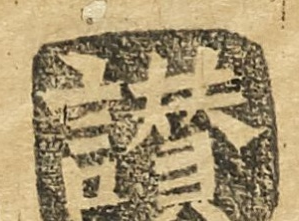讚
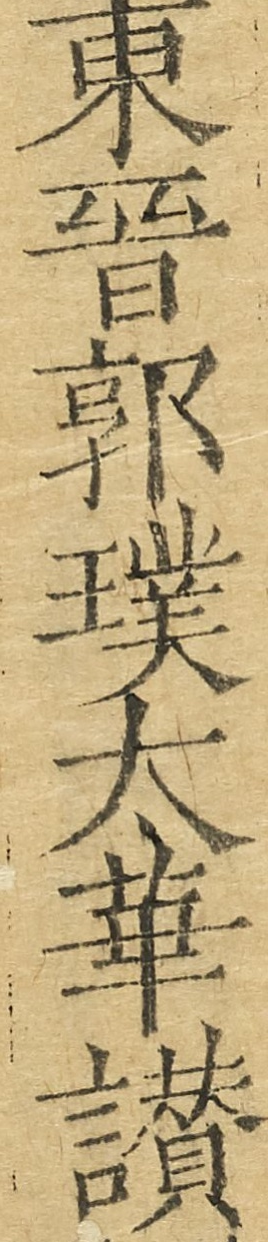東晉郭璞太華讚
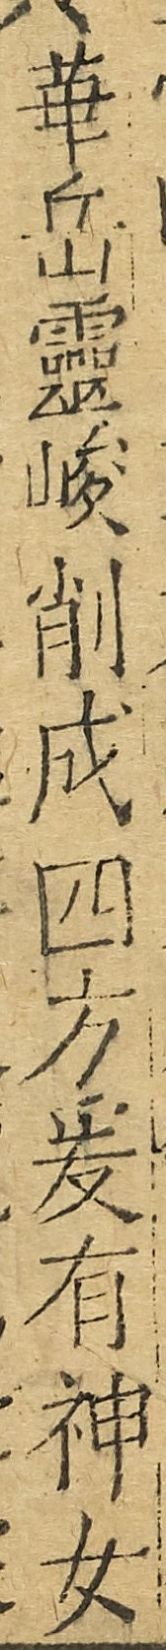華岳靈峻削成四方爰有神女
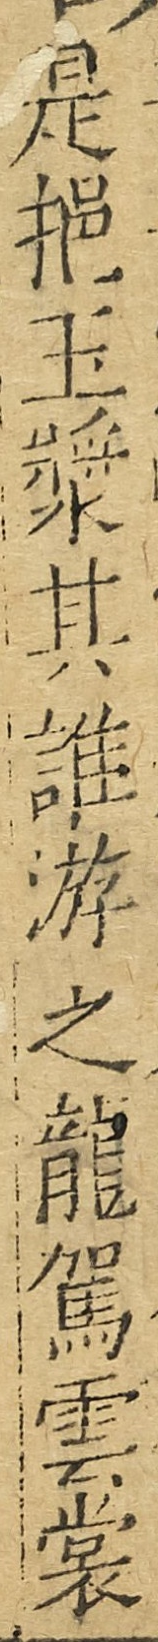是挹玉漿其誰游之龍駕雲裳
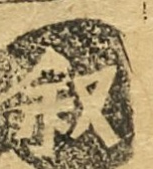敘
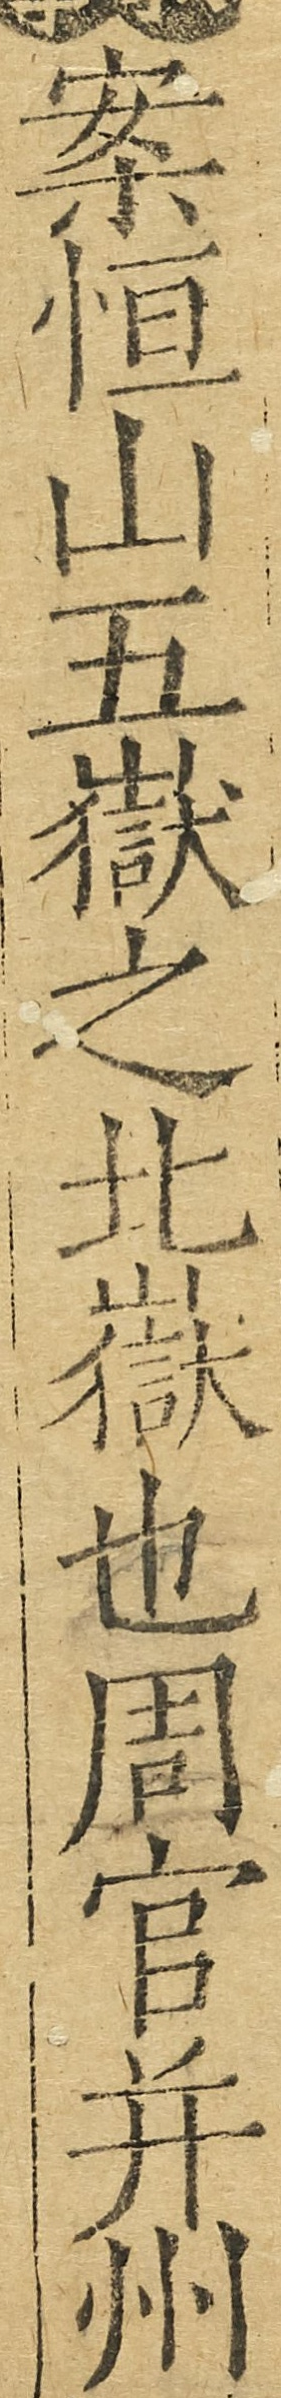案恒山五嶽之北嶽也周官并州
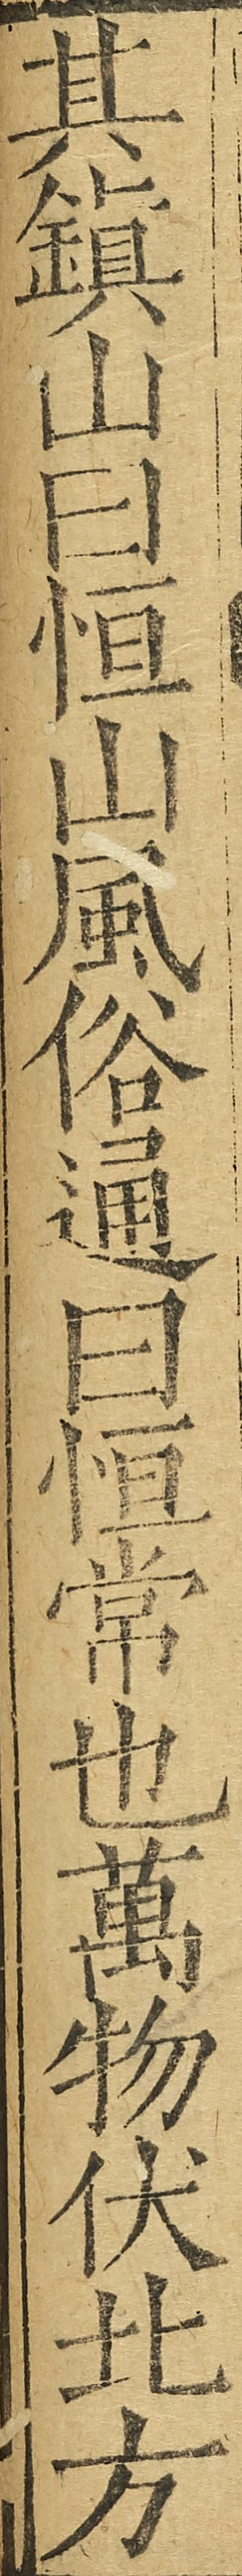其鎮山曰恒山風俗通曰恒常也萬物伏北方
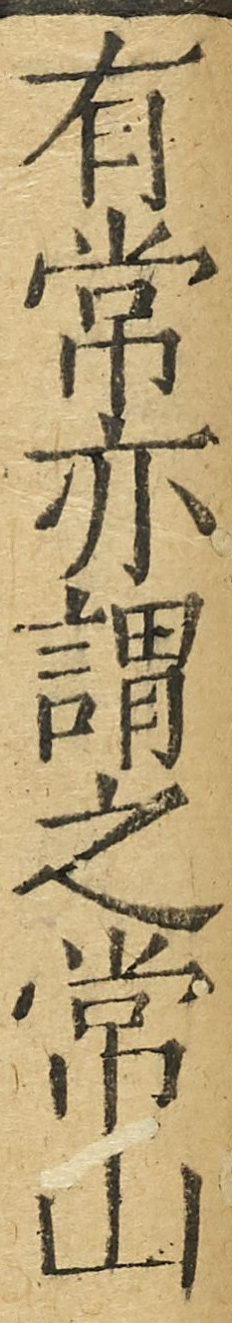有常亦謂之常山
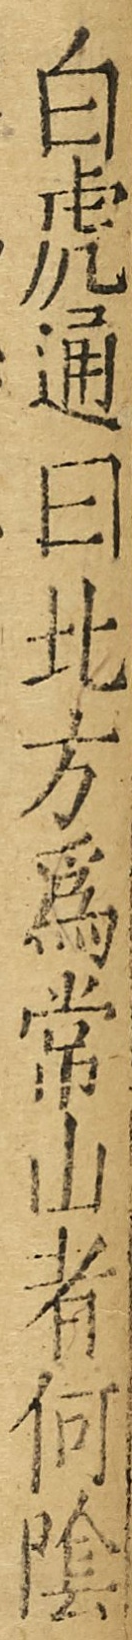白虎通曰北方為常山者何陰
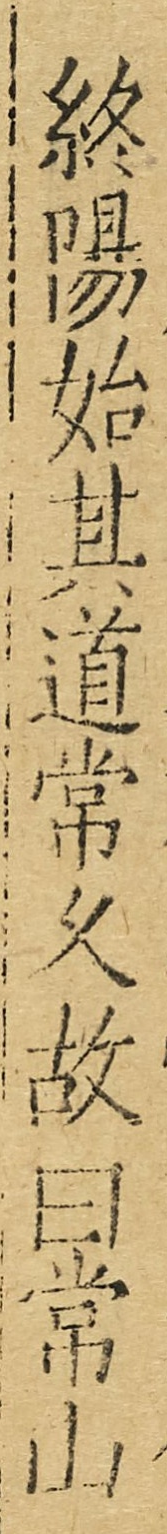終陽始其道常久故曰常山
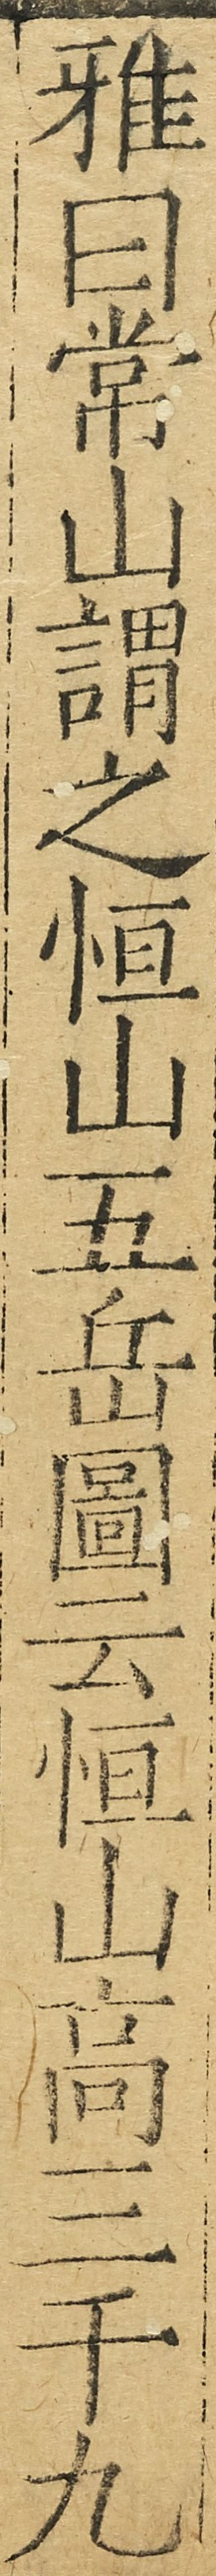雅曰常山謂之恒山五岳圖云恒山高三千九
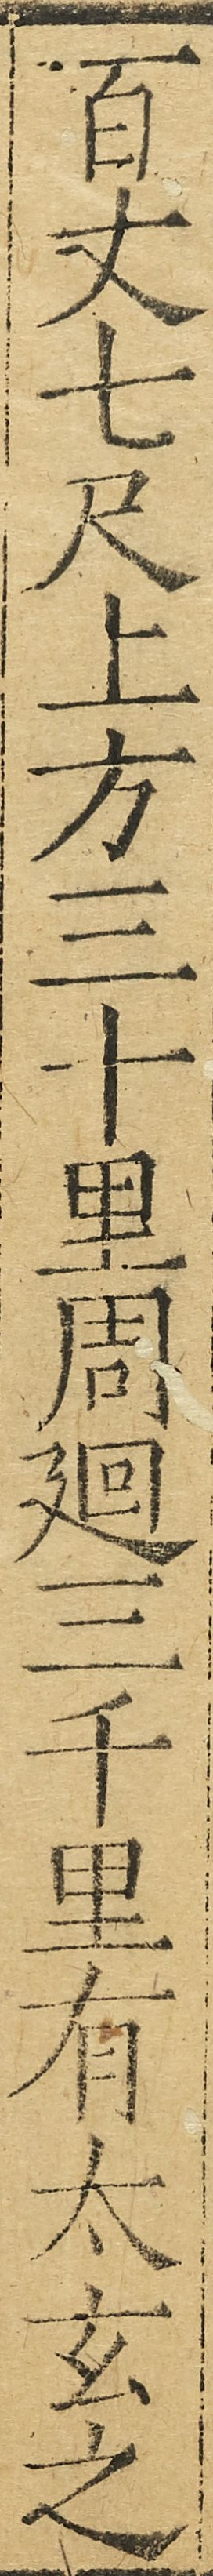百丈七尺上方三十里周廻三千里有太玄之
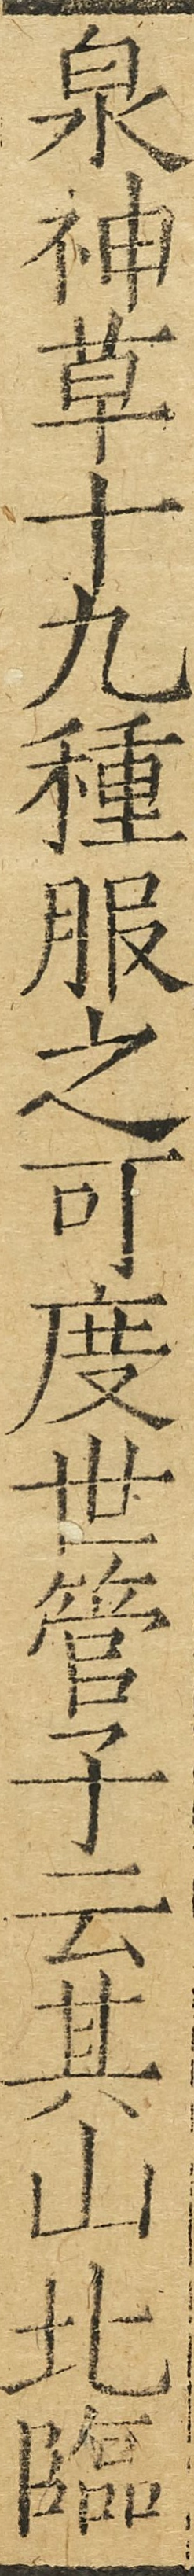泉神草十九種服之可度世管子云其山北臨
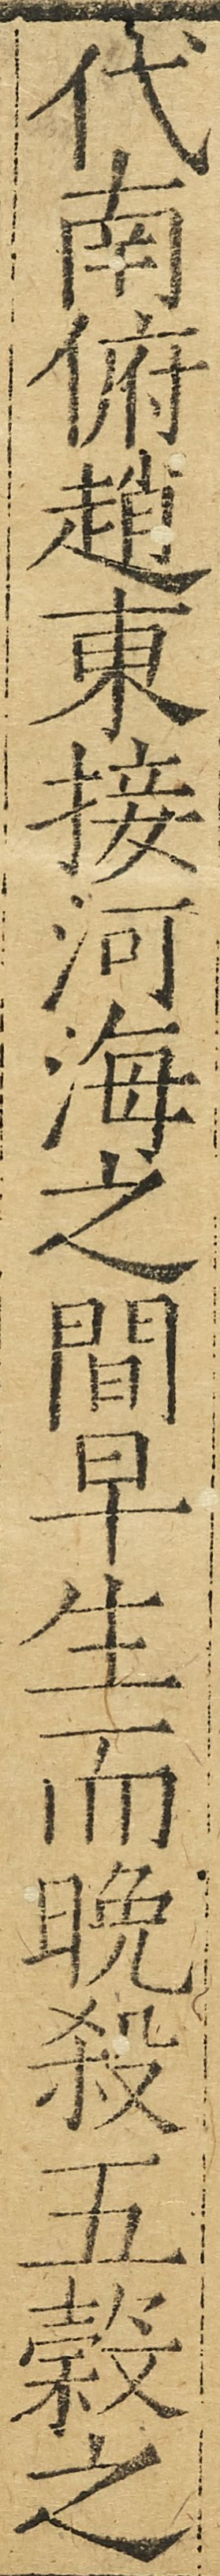代南俯趙東接河海之間早生而晚殺五穀之
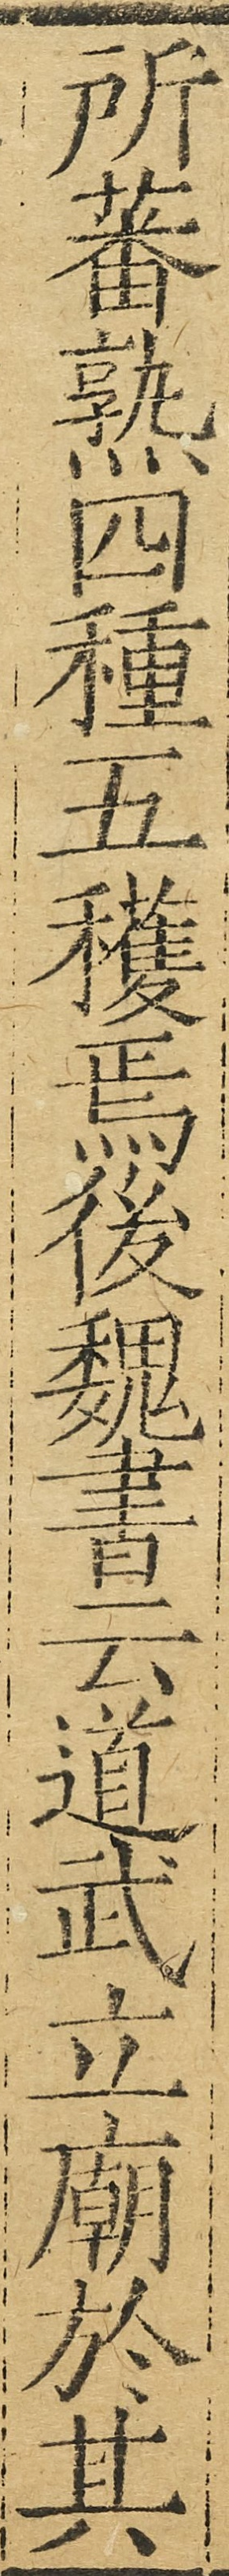所蕃熟四種五穫焉後魏書云道武立廟於其
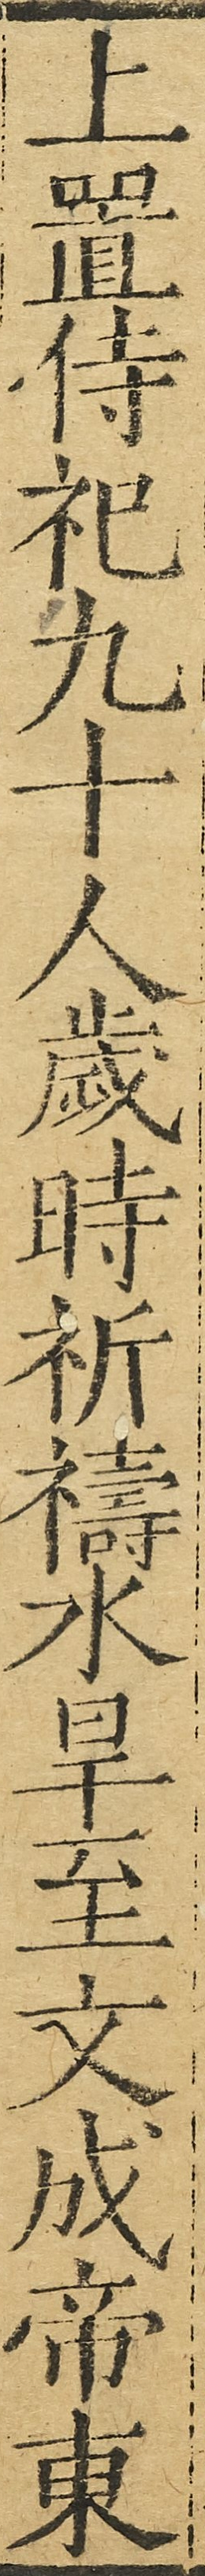上置侍祀九十人歲時祈禱水旱至文成帝東
